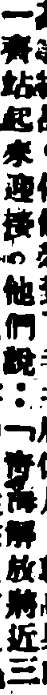一齊站起來迎接。他們說：「靑海解放將近三
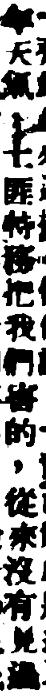年天氣，土匪特務把我們害的，從來沒有見過
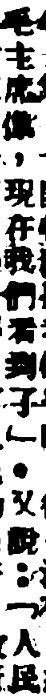毛主席像，現在我們看到了」。又說：「人民
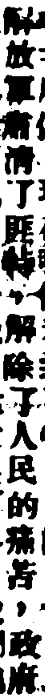解放軍肅清了匪特，解除了人民的痛苦，政府
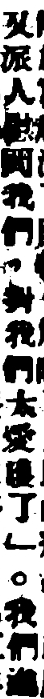又派人慰問我們，對我們太愛護了」。我們進
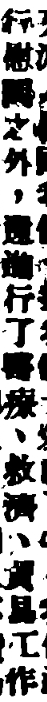行慰問之外，還進行了醫療、救濟、貿易工作
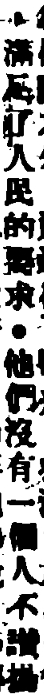，滿足了人民的要求。他們沒有一個人不讚揚
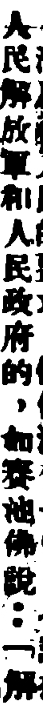人民解放軍和人民政府的，如賽池佛說：「解
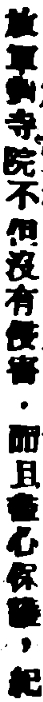放軍對寺院不但沒有侵害，而且盡心保護，紀
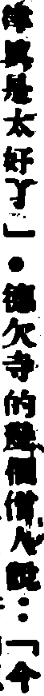律眞是太好了」。德欠寺的幾個僧人說：「今
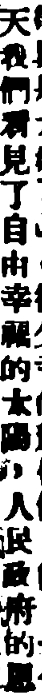天我們看見了自由幸福的太陽，人民政府的恩
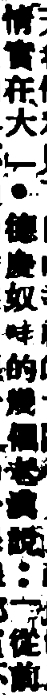情實在大」。德慶奴哇的幾個老漢說：「從前
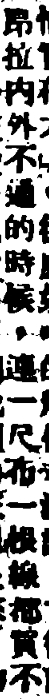昂拉內外不通的時候，連一尺布一根線都買不
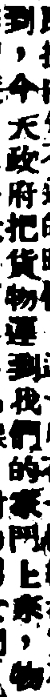到，今天政府把貨物運到我們的家門上來，物
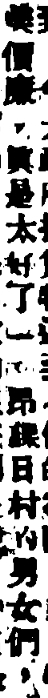美價廉，眞是太好了」。昂課日村的男女們，
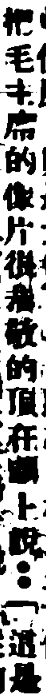把毛主席的像片很恭敬的頂在頭上說：「這是
